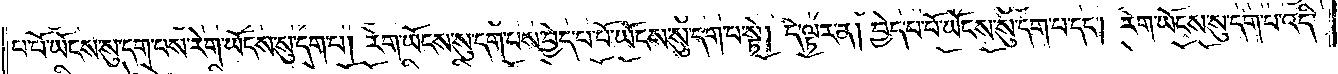པ་པོ་ཡོངས་སུ་དག་པས་རེག་ཡོངས་སུ་དག་པ། རེག་ཡོངས་སུ་དག་པས་བྱེད་པ་པོ་ཡོངས་སུ་དག་པ་སྟེ། དེ་ལྟར་ན། བྱེད་པ་པོ་ཡོངས་སུ་དག་པ་དང༌། རེག་ཡོངས་སུ་དག་པ་འདི་
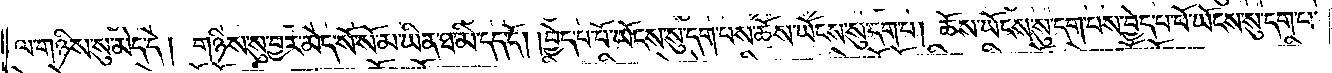ལ་གཉིས་སུ་མེད་དེ། གཉིས་སུ་བྱར་མེད་སོ་སོ་མ་ཡིན་ཐ་མི་དད་དོ། ། བྱེད་པ་པོ་ཡོངས་སུ་དག་པས་ཆོས་ཡོངས་སུ་དག་པ། ཆོས་ཡོངས་སུ་དག་པས་བྱེད་པ་པོ་ཡོངས་སུ་དག་པ་
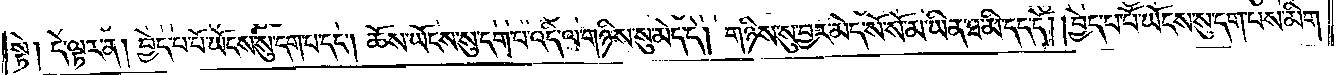སྟེ། དེ་ལྟར་ན།   བྱེད་པ་པོ་ཡོངས་སུ་དག་པ་དང༌། ཆོས་ཡོངས་སུ་དག་པ་འདི་ལ་གཉིས་སུ་མེད་དེ། གཉིས་སུ་བྱར་མེད་སོ་སོ་མ་ཡིན་ཐ་མི་དད་དོ། །བྱེད་པ་པོ་ཡོངས་སུ་དག་པས་མིག་
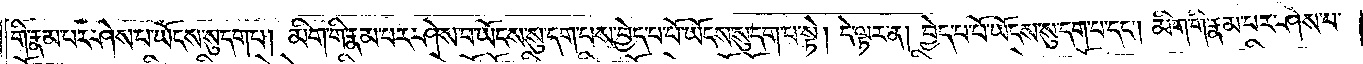གི་རྣམ་པར་ཤེས་པ་ཡོངས་སུ་དག་པ། མིག་གི་རྣམ་པར་ཤེས་པ་ཡོངས་སུ་དག་པས་བྱེད་པ་པོ་ཡོངས་སུ་དག་པ་སྟེ། དེ་ལྟར་ན། བྱེད་པ་པོ་ཡོངས་སུ་དག་པ་དང༌། མིག་གི་རྣམ་པར་ཤེས་པ་
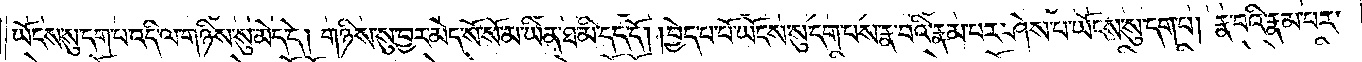ཡོངས་སུ་དག་པ་འདི་ལ་གཉིས་སུ་མེད་དེ། གཉིས་སུ་བྱར་མེད་སོ་སོ་མ་ཡིན་ཐ་མི་དད་དོ། །བྱེད་པ་པོ་ཡོངས་སུ་དག་པས་རྣ་བའི་རྣམ་པར་ཤེས་པ་ཡོངས་སུ་དག་པ། རྣ་བའི་རྣམ་པར་
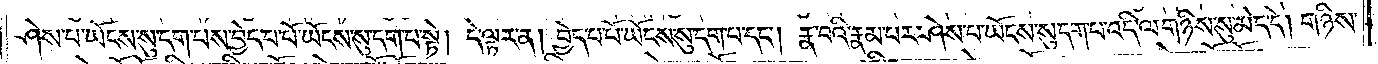ཤེས་པ་ཡོངས་སུ་དག་པས་བྱེད་པ་པོ་ཡོངས་སུ་དག་པ་སྟེ། དེ་ལྟར་ན། བྱེད་པ་པོ་ཡོངས་སུ་དག་པ་དང༌། རྣ་བའི་རྣམ་པར་ཤེས་པ་ཡོངས་སུ་དག་པ་འདི་ལ་གཉིས་སུ་མེད་དེ། གཉིས་
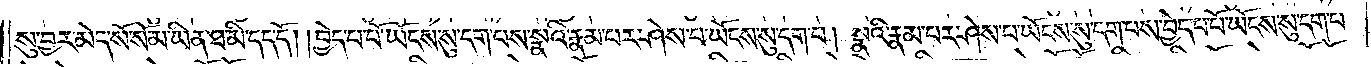སུ་བྱར་མེད་སོ་སོ་མ་ཡིན་ཐ་མི་དད་དོ། །བྱེད་པ་པོ་ཡོངས་སུ་དག་པས་སྣའི་རྣམ་པར་ཤེས་པ་ཡོངས་སུ་དག་པ། སྣའི་རྣམ་པར་ཤེས་པ་ཡོངས་སུ་དག་པས་བྱེད་པ་པོ་ཡོངས་སུ་དག་པ་
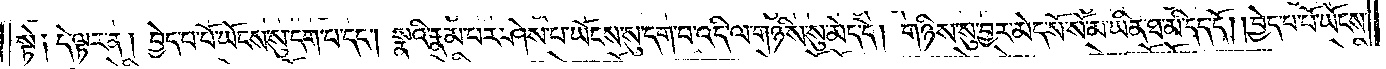སྟེ༑ དེ་ལྟར་ན། བྱེད་པ་པོ་ཡོངས་སུ་དག་པ་དང༌། སྣའི་རྣམ་པར་ཤེས་པ་ཡོངས་སུ་དག་པ་འདི་ལ་གཉིས་སུ་མེད་དེ། གཉིས་སུ་བྱར་མེད་སོ་སོ་མ་ཡིན་ཐ་མི་དད་དོ། །བྱེད་པ་པོ་ཡོངས་
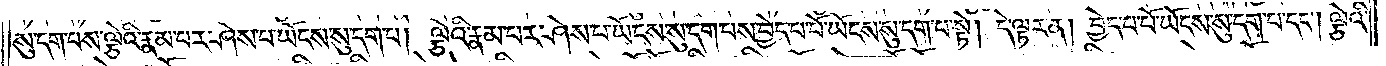སུ་དག་པས་ལྕེའི་རྣམ་པར་ཤེས་པ་ཡོངས་སུ་དག་པ། ལྕེའི་རྣམ་པར་ཤེས་པ་ཡོངས་སུ་དག་པས་བྱེད་པ་པོ་ཡོངས་སུ་དག་པ་སྟེ། དེ་ལྟར་ན། བྱེད་པ་པོ་ཡོངས་སུ་དག་པ་དང༌། ལྕེའི་
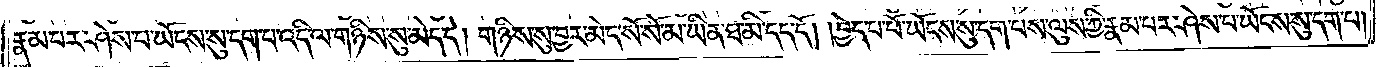རྣམ་པར་ཤེས་པ་ཡོངས་སུ་དག་པ་འདི་ལ་གཉིས་སུ་མེད་དེ། གཉིས་སུ་བྱར་མེད་སོ་སོ་མ་ཡིན་ཐ་མི་དད་དོ། །བྱེད་པ་པོ་ཡོངས་སུ་དག་པས་ལུས་ཀྱི་རྣམ་པར་ཤེས་པ་ཡོངས་སུ་དག་པ།
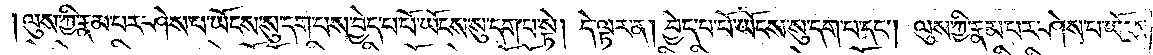ལུས་ཀྱི་རྣམ་པར་ཤེས་པ་ཡོངས་སུ་དག་པས་བྱེད་པ་པོ་ཡོངས་སུ་དག་པ་སྟེ། དེ་ལྟར་ན། བྱེད་པ་པོ་ཡོངས་སུ་དག་པ་དང༌། ལུས་ཀྱི་རྣམ་པར་ཤེས་པ་ཡོངས་
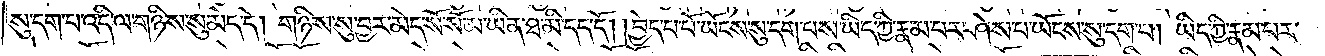སུ་དག་པ་འདི་ལ་གཉིས་སུ་མེད་དེ། གཉིས་སུ་བྱར་མེད་སོ་སོ་མ་ཡིན་ཐ་མི་དད་དོ། །བྱེད་པ་པོ་ཡོངས་སུ་དག་པས་ཡིད་ཀྱི་རྣམ་པར་ཤེས་པ་ཡོངས་སུ་དག་པ། ཡིད་ཀྱི་རྣམ་པར་
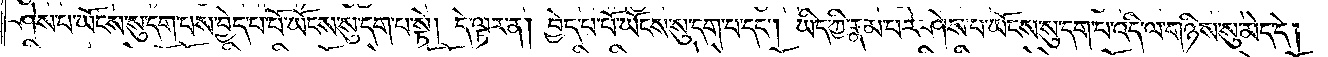ཤེས་པ་ཡོངས་སུ་དག་པས་བྱེད་པ་པོ་ཡོངས་སུ་དག་པ་སྟེ། དེ་ལྟར་ན། བྱེད་པ་པོ་ཡོངས་སུ་དག་པ་དང༌། ཡིད་ཀྱི་རྣམ་པར་ཤེས་པ་ཡོངས་སུ་དག་པ་འདི་ལ་གཉིས་སུ་མེད་དེ།
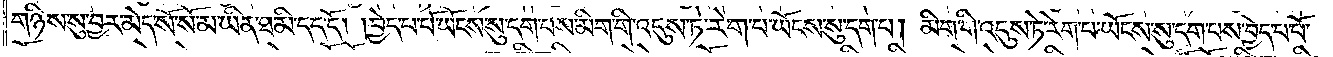གཉིས་སུ་བྱར་མེད་སོ་སོ་མ་ཡིན་ཐ་མི་དད་དོ། །བྱེད་པ་པོ་ཡོངས་སུ་དག་པས་མིག་གི་འདུས་ཏེ་རེག་པ་ཡོངས་སུ་དག་པ། མིག་གི་འདུས་ཏེ་རེག་པ་ཡོངས་སུ་དག་པས་བྱེད་པ་པོ་
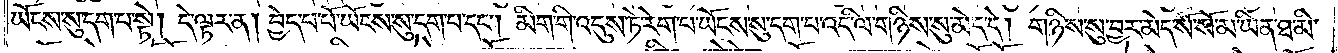ཡོངས་སུ་དག་པ་སྟེ། དེ་ལྟར་ན། བྱེད་པ་པོ་ཡོངས་སུ་དག་པ་དང༌། མིག་གི་འདུས་ཏེ་རེག་པ་ཡོངས་སུ་དག་པ་འདི་ལ་གཉིས་སུ་མེད་དེ། གཉིས་སུ་བྱར་མེད་སོ་སོ་མ་ཡིན་ཐ་མི་
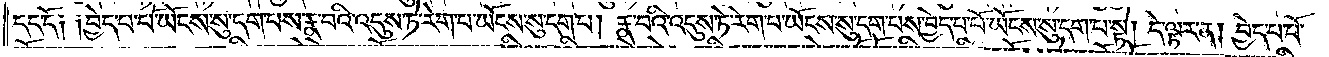དད་དོ༑ ༑བྱེད་པ་པོ་ཡོངས་སུ་དག་པས་རྣ་བའི་འདུས་ཏེ་རེག་པ་ཡོངས་སུ་དག་པ། རྣ་བའི་འདུས་ཏེ་རེག་པ་ཡོངས་སུ་དག་པས་བྱེད་པ་པོ་ཡོངས་སུ་དག་པ་སྟེ། དེ་ལྟར་ན། བྱེད་པ་པོ་
